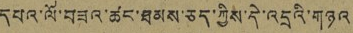དཔའ་ལོ་བཟའ་ཚང་ཐམས་ཅད་ཀྱིས་དེ་འདྲའི་གཉའ་
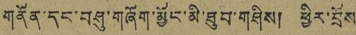གནོན་དང་བཤུ་གཞོག་མྱོང་མི་ཐུབ་གཤིས། ཕྱིར་བྲོས་
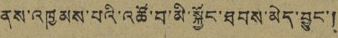ནས་འཁྱམས་པའི་འཚོ་བ་མི་སྐྱོང་ཐབས་མེད་བྱུང་།
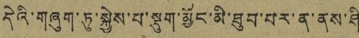དེའི་གཞུག་ཏུ་སྐྱེས་པ་སྡུག་མྱོང་མི་ཐུབ་པར་ན་ནས་ཤི
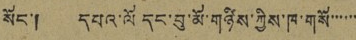སོང་། དཔའ་ལོ དང་བུ་མོ་གཉིས་ཀྱིས་ཁ་གསོ་་་་་་་
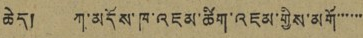ཆེད། ཀ་མདོས་ཁ་འཇམ་ཚིག་འཇམ་གྱིས་མགོ་་་་་་
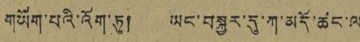གཡོག་པའི་འོག་ཏུ། ཡང་བསྐྱར་དུ་ཀ་མདོ་ཚང་ལ
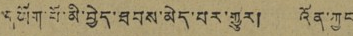གཡོག་པོ་མི་བྱེད་ཐབས་མེད་པར་གྱུར། འོན་ཀྱང་
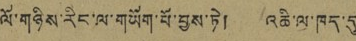ལོ་གཉིས་རིང་ལ་གཡོག་པོ་བྱས་ཏེ། འཆི་ལ་ཁད་དུ
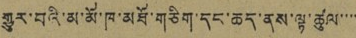གྱུར་བའི་མ་མོ་ཁ་མཐོ་གཅིག་དང་ཆད་ནས་ལྟ་ཚུལ་་་་་
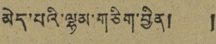མེད་པའི་ལྷམ་གཅིག་བྱིན། །
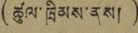(ཚུལ་ཁྲིམས་ནས།)
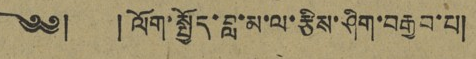༄༅། །ལོག་སྤྱོད་བླ་མ་ལ་རྩིས་ཤིག་བརྒྱབ་པ།
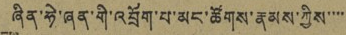ཞིན་ཧེ་ཞན་གི་འབྲོག་པ་མང་ཚོགས་རྣམས་ཀྱིས་་་་
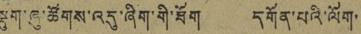སྡུག་ཞུ་ཚོགས་འདུ་ཞིག་གི་ཐོག དགོན་པའི་ལོག་
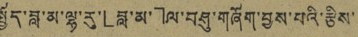སྤྱོད་བླ་མ་ལྷ་རུ་「བླ་མ་」ལ་བཤུ་གཞོག་བྱས་པའི་རྩིས་
